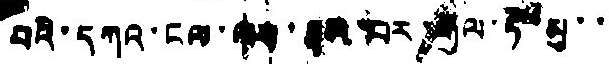བའི་དཀའ་ངལ་ལས་སྣམ་བར་རྒྱལ་ཏེ་མུ་་
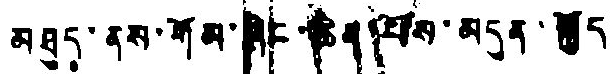མཐུད་ནས་གོམ་ཞེང་ཆེན་པོས་མདུན་སྐྱོད
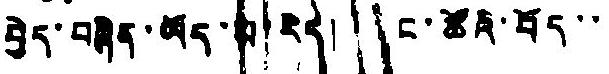བྱེད་བཞིན་ཡོད་པ་རེད། ང་ཚོའི་བོད་་་
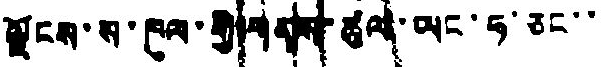ལྗོངས་ས་ཁུལ་གྱི་གནས་ཚུལ་ཡང་ཧ་ཅང་་
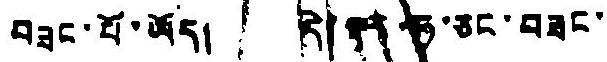བཟང་པོ་ཡོད། དེ་ལྟར ཧ་ཅང་བཟང་
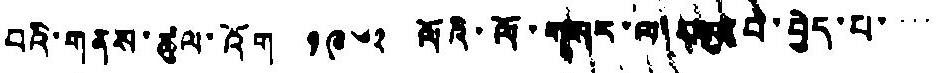བའི་གནས་ཚུལ་འོག ༡༩༦༢ ལོའི་ལོ་གསར་ལ་བསུ་བ་བྱེད་པ་་་་
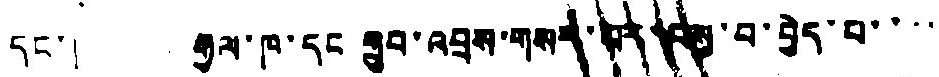དང་། རྒྱལ་ཁ་དང གྲུསྒྲུབ་འབྲས་གས་པར་་བསུ་བ་བྱེད་པ་་་་
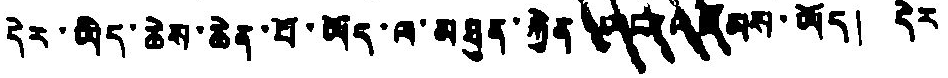དེར་ཡིད་ཆེས་ཆེན་པོ་ཡོད་ལ་མཐུན་རྐྱེན ཡང་འཛོམས་ཡོད། དེར
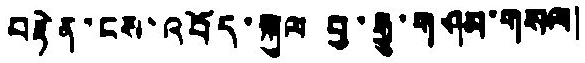བརྟེན་ངས་འབོད་སྐུལ བྱ་རྒྱུ་གཤམ་གསལ།
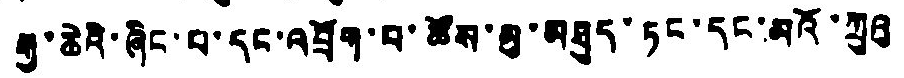རྒྱ་ཆེའི་ཞིང་པ་དང་འབྲོག་པ་ཚོས་མུ་མཐུད་ཏང་དང་མའོ་ཀྲུའུ
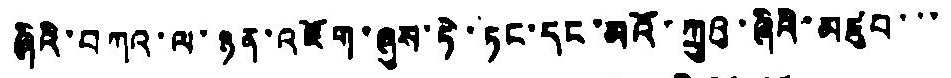ཞིའི་བཀའ་ལ་ཉན་འཇོག་ཞུས་ཏེ་ཏང་དང་མའོ་ཀྲུའུ་ཞིའི་མཛུབ་་་
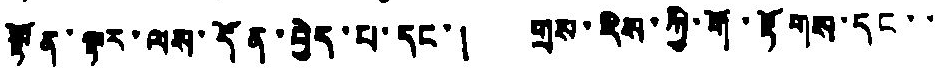སྟོན་ལྟར་ལས་དོན་བྱེད་པ་དང་། གྲས་རིས་ཀྱི་གོ་རྟོགས་དང་་
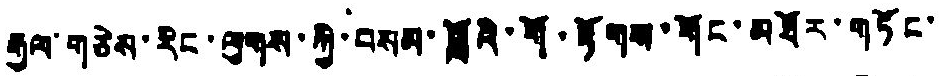རྒྱལ་གཅེས་རིང་ལུགས་ཀྱི་བསམ་བློའི་གོ་རྟོགས་གོང་མཐོར་གཏོང་
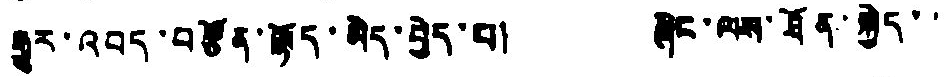རྒྱུར་འབད་བརྩོན་ལྷོད་མེད་བྱེད་པ། ཞིང་ལས་ཐོན་སྐྱེད་་
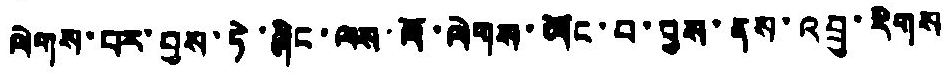ལེགས་པར་བྱས་ཏེ་ཞིང་ལས་ལོ་ལེགས་ཡོང་བ་བྱས་ནས་འབྲུ་རིགས
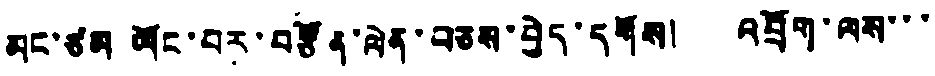མང་ཙམ ཡོང་བར་བརྩོན་ལེན་བཅས་བྱེད་དགོས། འབྲོག་ལས་་་
